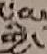གྱི་
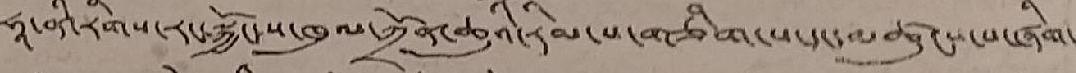ཧཱ་ནི་རིགས་རང་སྐྱོང་ས་ཁུལ་ཀྲོན་ཆུའི་རིམ་པ་གཅིག་པ་དང་མཚུངས་པ་ཞིག་
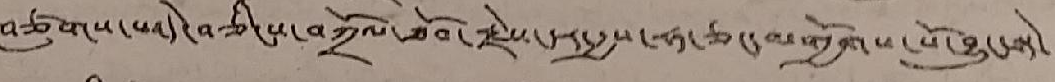བཙུགས་པ་དེ་བཅིངས་བཀྲོལ་ཐོབ་རྗེས་དར་རྒྱས་ཧ་ཅང་མགྱོགས་པོ་བྱུངསཏེ་
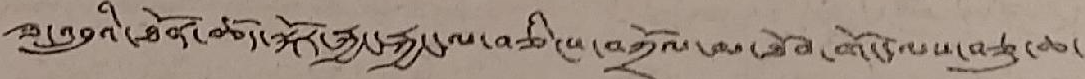ཟླ་འབྲུའི་ཐོན་ཚད་སྐོར་རྐྱང་རྐྱང་ལ་བཅིངས་བཀྲོལ་མ་ཐོབ་གོང་ལས་བཅུ་ཆ་
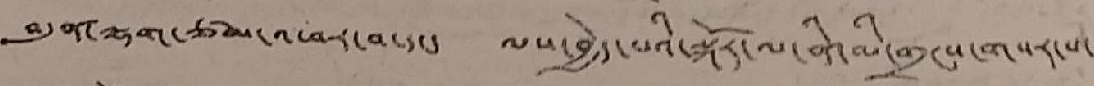བདུན་ལྷག་ཙམ་འཕར་བ་དང་ ལས་བྱེད་པའི་སྐོར་ལ་ནི་མི་གྲངས་གསར་པ་
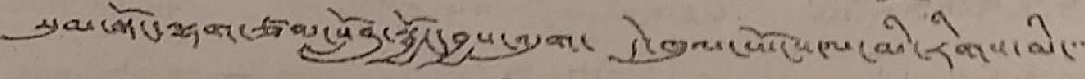སུམ་སྟོང་ལྷག་ཙམ་སློབ་སྦྱོང་བྱས་འདུག་ དེ་ཁུལ་ཡོང་ལ་མི་རིགས་མི་་་་
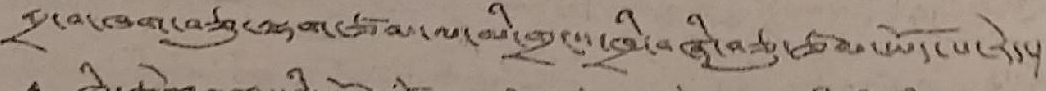འདྲ་བ་ཁག་བཅུ་ལྷག་ཙམ་ལ་མི་གྲངས་ཁྲི་བཞི་བཅུ་ཙམ་ཡོད་པ་རེད་།
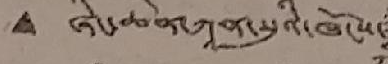• ཞིང་ཆེན་ཀཱན་སུའི་ཁོངས་
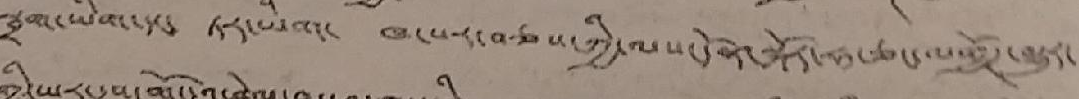སྦྲག་ཡིག་དང་ ཏར་ཡིག་ ཁ་པར་བཅས་ཀྱི་ལས་དོན་སྐོར་ཧ་ཅང་མགྱོཊ་མྱུར་
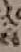ས
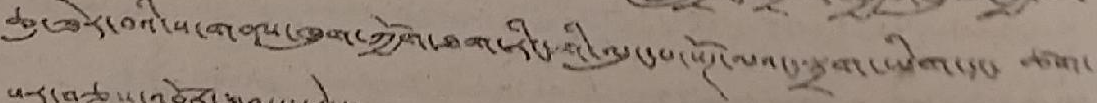ཆུ་ཟེར་བའི་ས་གནས་ཁུག་ཀྱོག་ཐག་རིང་གི་ལུང་པ་སོཊ་ལའང་སྦྲག་ཡིག་དང་ ཚག་
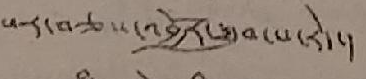པར་བཅས་འབྱོར་ཐུབ་པ་རེད་།
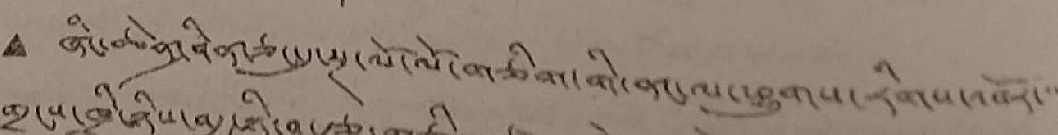• ཞིང་ཆེན་ཤིན་ཅང་དུ་སྔ་ལོ་ལོ་གཅིག་གི་ནང་ལ་ཕྱུགས་རིགས་འབོར་་་་་
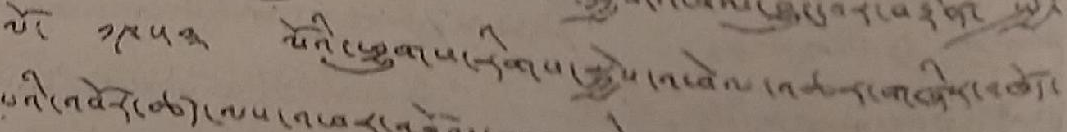ལོ་༡༩༥༣་ལོའི་ཕྱུགས་རིགས་སྐྱེས་འཕེལ་འཆར་གཞིན་འཁོད་
